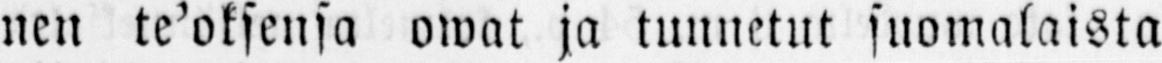nen te’oksensa owat ja tunnetut suomalaista
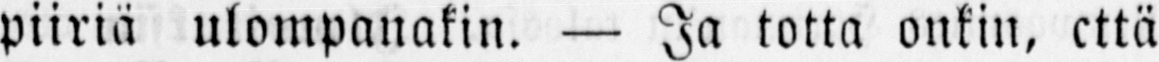piiriä ulompanakin. — Ja totta onkin, että
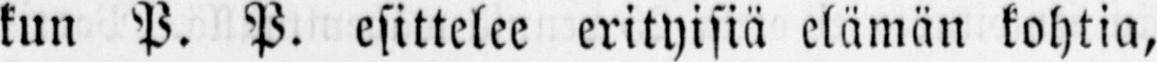kun P. P. esittelee erityisiä elämän kohtia,
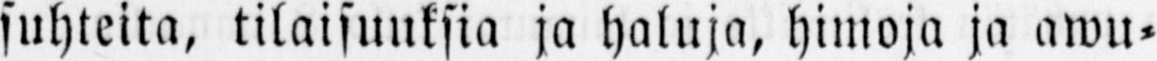suhteita, tilaisuuksia ja haluja, himoja ja awu-
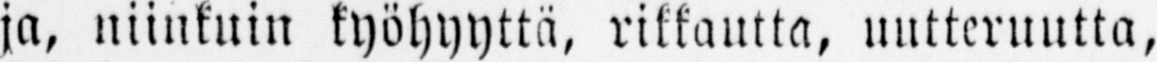ja, niinkuin kyöhyyttä, rikkautta, uutteruutta,
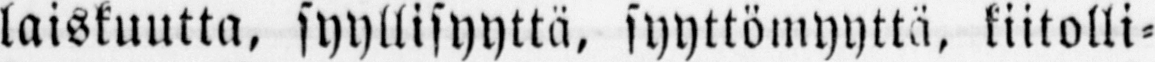laiskuutta, syyllisyyttä, syyttömyyttä, kiitolli-
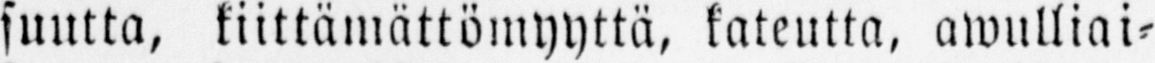suutta, kiittämättömyyttä, kateutta, awulliai-
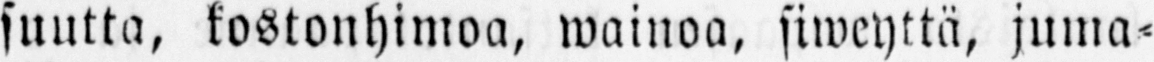suutta, kostonhimoa, wainoa, siweyttä, juma-
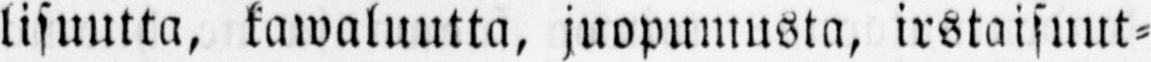lisuutta, kawaluutta, juopumusta, irstaisuut-
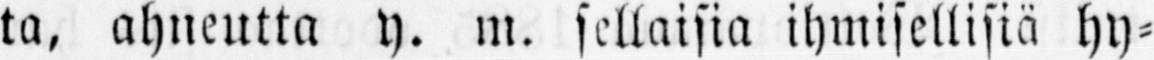ta, ahneutta y. m. sellaisia ihmisellisiä hy-
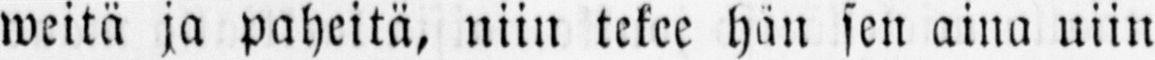weitä ja paheitä, niin tekee hän sen aina niin
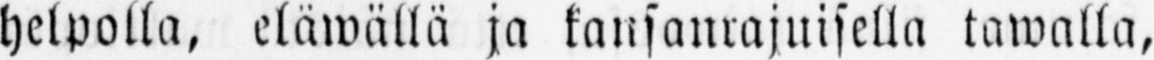helpolla, eläwällä ja kansanrajuisella tawalla,
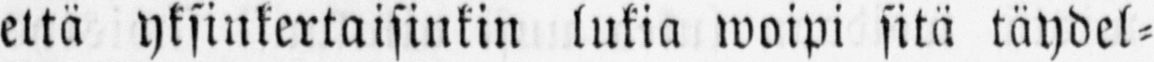että yksinkertaisinkin lukia woipi sitä täydel-
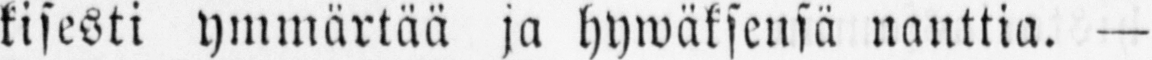lisesti ymmärtää ja hywäksensä nanttia. —
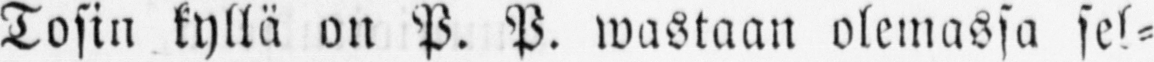Tosin kyllä on P. P. wastaan olemassa sel-
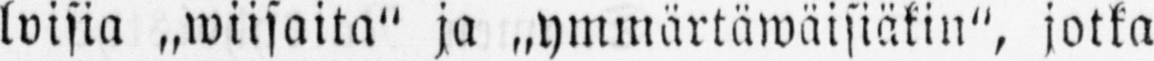loisia ja „ymmärtäwäisiäkin", jotka
